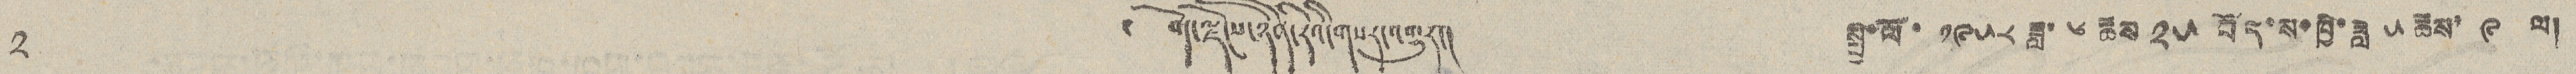༢ ༄ བོད་ལྗོངས་ཉིན་རེའི་གསར་འགྱུར། སྤྱི་ལོ་ ༡༩༥༨ ཟླ་ ༦ ཚེས་ ༢༥ བོད་ས་ཁྱི་ཟླ ༥ ཚེས་ ༩ ལ།
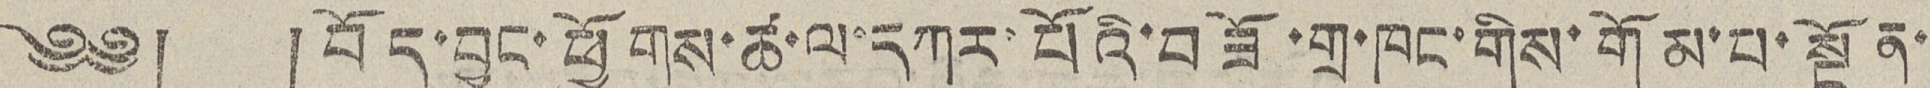༄༅། །བོད་བྱང་ཕྱོགས་ཚ་ལ་དཀར་པོའི་བཟོ་གྲ་ཁང་གིས་གོམ་པ་སྔོན་
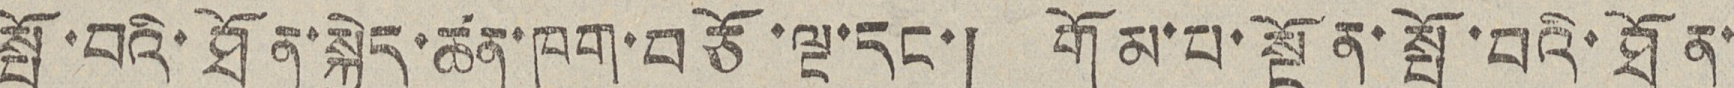སྤོ་བའི་ཐོན་སྐྱེད་ཚན་ཁག་བཅོ་ལྔ་དང་། གོམ་པ་སྔོན་སྤོ་བའི་ཐོན་
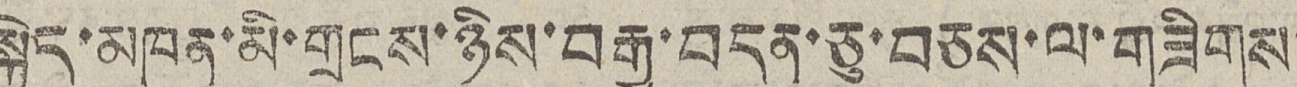སྐྱེད་མཁན་མི་གྲངས་ཉིས་བརྒྱ་བདུན་ཅུ་བཅས་ལ་གཟིགས་
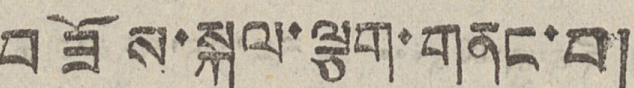བཟོས་སྐུལ་ལྕག་གནང་བ།
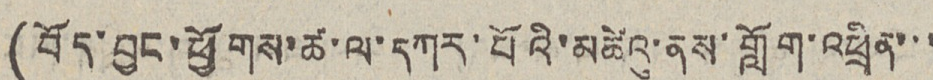(བོད་བྱང་ཕྱོགས་ཚ་ལ་དཀར་པོའི་མཚེའུ་ནས་གློག་འཕྲིན་་་
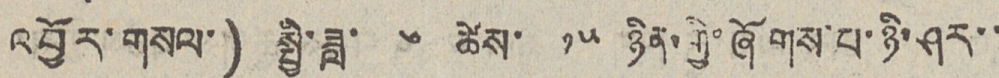འབྱོར་གསལ་) སྤྱི་ཟླ་ ༦ ཚེས་ ༡༥ ཉིན་གྱི་ཞོགས་པ་ཉི་ཤར་་
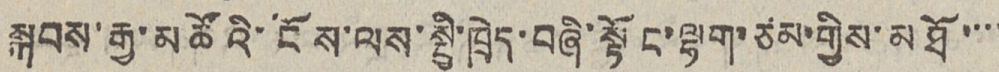སྐབས་རྒྱ་མཚོའི་ངོས་ལས་སྤྱི་ཁྲེད་བཞི་སྟོང་ལྷག་ཙམ་གྱིས་མཐོ་་་་
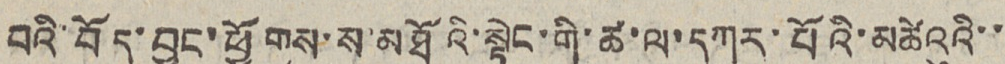བའི་བོད་བྱང་ཕྱོགས་ས་མཐོའི་སྟེང་གི་ཚ་ལ་དཀར་པོའི་མཚེའུའི་་
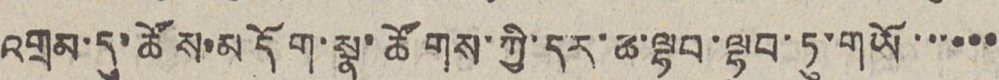འགྲམ་དུ་ཚོས་མདོག་སྣ་ཚོགས་ཀྱི་དར་ཆ་ལྷབ་ལྷུབ་ཏུ་གཡོ་་་་་་
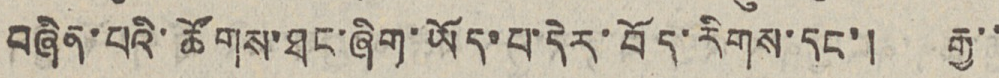བཞིན་པའི་ཚོགས་ཐང་ཞིག་ཡོད་པ་དེར་བོད་རིགས་དང་། རྒྱ་་
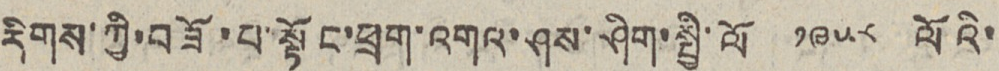རིགས་ཀྱི་བཟོ་པ་སྟོང་ཕྲག་འགའ་ཤས་ཤིག་སྤྱི་ལོ ༡༩༥༨ ལོའི་
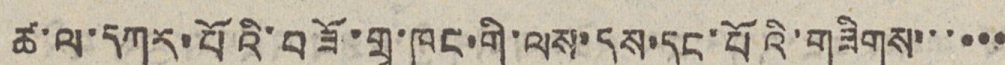ཚ་ལ་དཀར་པོའི་བཟོ་གྲྭ་ཁང་གི་ལས་དུས་དང་པོའི་གཟིགས་་་་་་
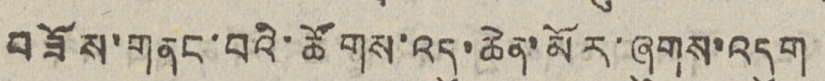བཟོས་གནང་བའི་ཚོགས་འདུ་ཆེན་མོར་ཞུགས་འདུག
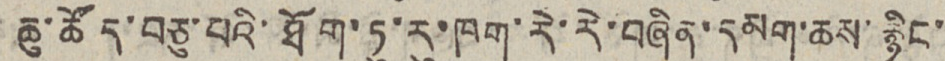ཆུ་ཚོད་བཅུ་པའི་ཐོག་ཏུ་རུ་ཁག་རེ་རེ་བཞིན་དམག་ཆས་རྙིང་
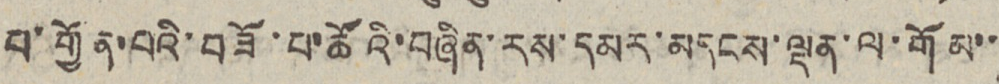པ་གྱོན་པའི་བཟོ་པ་ཚོའི་བཞིན་རས་དམར་མདངས་ལྡན་ལ་གོམ་་
